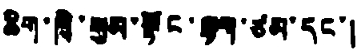ཆིག་ཁྲི་སུམ་སྟོང་ལྷག་ཙམ་དང་།
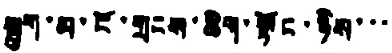སྤུག་མ་ངོ་གྲངས་ཆིག་སྟོང་ཉིས་་་
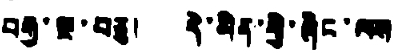བརྒྱ་ལྔ་བཅུ། དེ་མིན་གྱི་ཞིང་ལས
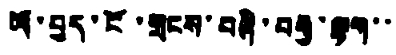ཡོ་བྱད་ངོ་གྲངས་བཞི་བརྒྱ་ལྷག་་
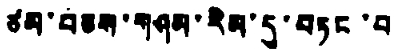ཙམ་བཅས་གཤམ་རིམ་དུ་བཏང་བ
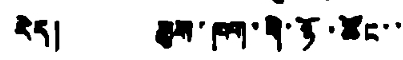རེད། ཆུས་ཁག་གི་ཉོ་ཚོང་་
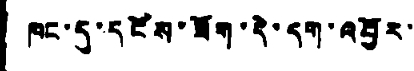ཁང་དུ་དངོས་ཟོག་དེ་དག་འབྱོར་
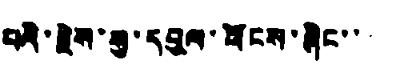པའི་རྗེས་སུ་དབུལ་ཕོངས་ཞིང་་
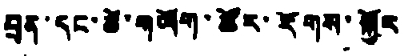བྲན་དང་ཚེ་གཡོག་ཚོར་རོགས་སྐྱོར
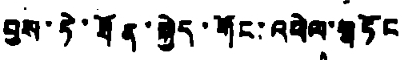བྱས་ཏེ་ཐོན་སྐྱེད་གོང་འཕེལ་གཏོང
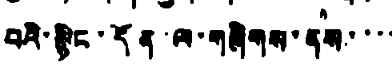བའི་སྙིང་དོན་ལ་གཞིགས་ནས་་་་
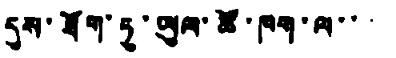དུས་ཐོག་ཏུ་ཡུལ་ཚོ་ཁག་ལ་་་་
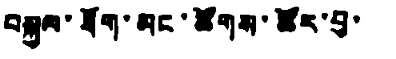བསྐྱལ་ཐོག་མང་ཚོགས་ཚོར་བྱ་་
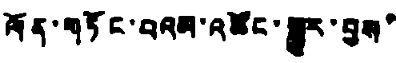ལོན་གཏོང་བའམ་འཚོང་སྒྱུར་བྱས་
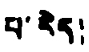པ་རེད།
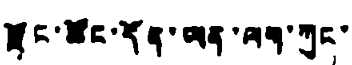རྫོང་ཚོང་དོན་ཡན་ལས་ཀུང་
